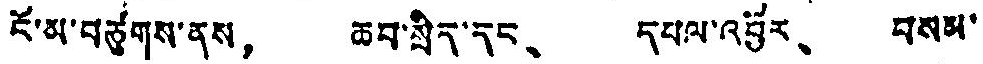ངོ་མ་བཙུགས་ནས， ཆབ་སྲིད་དང、 དཔལ་འབྱོར、 བསམ་
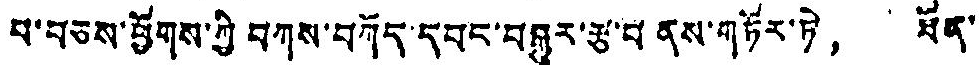པ་བཅས་ཕྱོགས་ཀྱི བཀས་བཀོད་དབང་བསྐྱུར་རྩ་བ ནས་གཏོར་ཏེ， ཐོན་
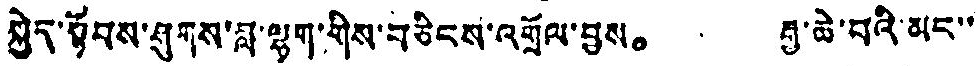སྐྱེད་སྟོབས་ཤུགས་བླ་ལྷག་གིས་བཅིངས་འགྲོལ་བྱས。 རྒྱ་ཆེ་བའི་མང་་
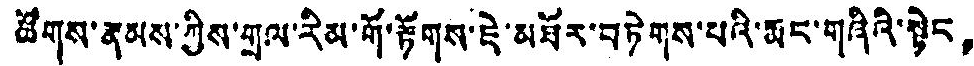ཚོགས་རྣམས་ཀྱིས་གྲལ་རིམ་གོ་རྟོགས་ཇེ་མཐོར་བཏེགས་པའི་རྨང་གཞིའི་སྟེང，
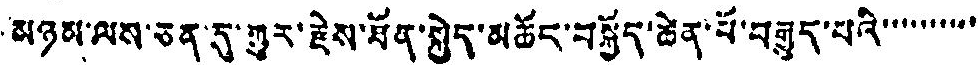མཉམ་ལས་ཅན་དུ་གྱུར་རྗེས་ཐོན་སྐྱེད་མཆོང་བསྐྱོད་ཆེན་པོ་བརྒྱུད་པའི་་་་་་་་་་
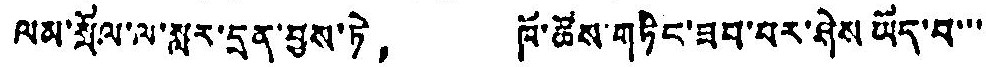ལམ་སྲོལ་ལ་སླར་དྲན་བྱས་ཏེ， ཁོ་ཚོས་གཏིང་ཟབ་པར་ཤེས ཡོད་པ་་་
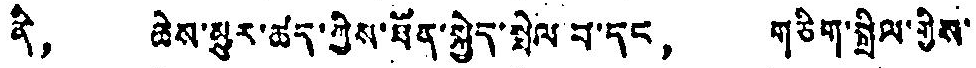ནི， ཆེས་མྱུར་ཚད་ཀྱིས་ཐོན་སྐྱེད་སྤེལ་བ་དང， གཅིག་སྒྲིལ་གྱིས་
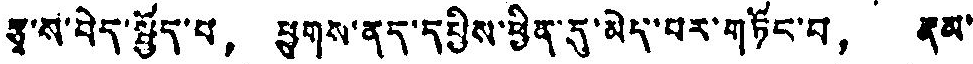རྩྭ་ས་བེད་སྤྱོད་པ， ཕྱུགས་ནད་དཔྱིས་ཕྱིན་དུ་མེད་པར་གཏོང་བ， རྣམ་
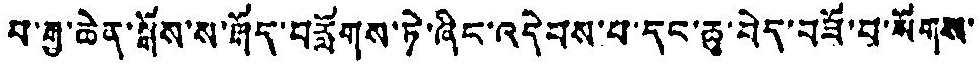བ་རྒྱ་ཆེན་སྒོས་ས་རྒོད་བརློགས་ཏེ་ཞིང་འདེབས་པ་དང་ཆུ་བེད་བཟོ་བ་སོགས་
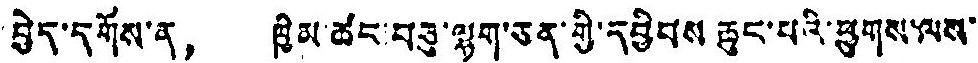བྱེད་དགོས་ན， ཁྱིམ་ཚང་བཅུ་ལྷག་ཅན་གྱི་དབྱིབས ཆུང་པའི་ཕྱུགས་ལས་
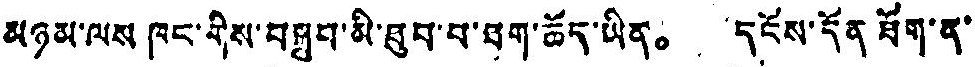མཉམ་ལས ཁང་གིས་བསྒྲུབ་མི་ཐུབ་པ་ཐག་ཆོད་ཡིན。 དངོས་དོན ཐོག་ན་
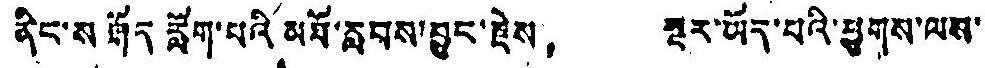ནིང་ས རྒོད རློག་པའི མཐོ་རླབས་བྱུང་རྗེས， སྔར་ཡོད་པའི་ཕྱུགས་ལས་
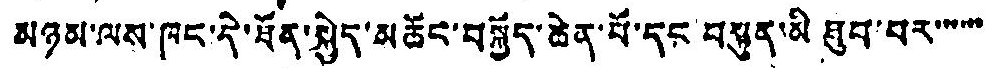མཉམ་ལས་ཁང་དེ་ཐོན་སྐྱེད་མཆོང་བསྐྱོད་ཆེན་པོ་དང བསྟུན་མི ཐུབ་པར་་་་་་
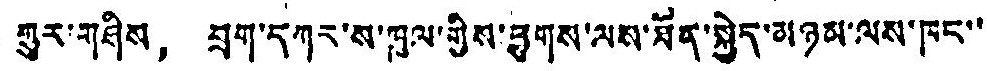གྱུར་གཤིས， བྲག་དཀར་ས་ཁུལ་གྱིས་ཕྱུགས་ལས་ཐོན་སྐྱེད་མཉམ་ལས་ཁང་་
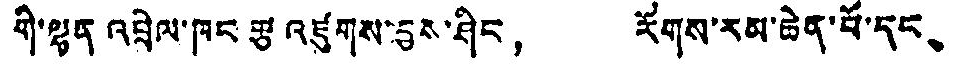གི་ལྷན འབྲེལ་ཁང རྩ འཛུགས་བྱས་ཤིང， རོགས་རམ་ཆེན་པོ་དང、
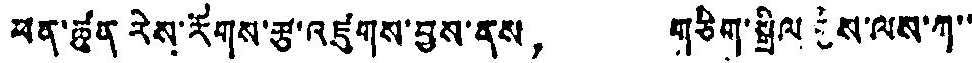ཕན་ཚུན རེས་རོགས་རྩ་འཛུགས་བྱས་ནས， གཅིག་སྒྲིལ བྱིས་ལས་ཀ་་
